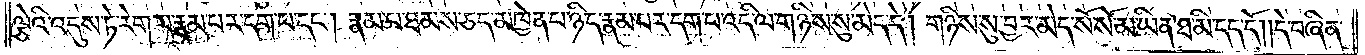ལྕེའི་འདུས་ཏེ་རེག་པ་རྣམ་པར་དག་པ་དང༌། རྣམ་པ་ཐམས་ཅད་མཁྱེན་པ་ཉིད་རྣམ་པར་དག་པ་འདི་ལ་གཉིས་སུ་མེད་དེ། གཉིས་སུ་བྱར་མེད་སོ་སོ་མ་ཡིན་ཐ་མི་དད་དོ། །དེ་བཞིན་
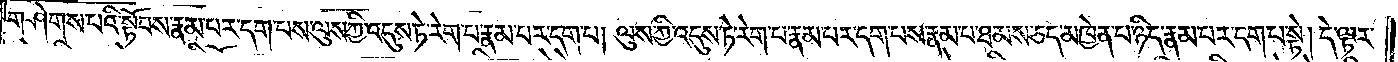གཤེགས་པའི་སྟོབས་རྣམ་པར་དག་པས་ལུས་ཀྱི་འདུས་ཏེ་རེག་པ་རྣམ་པར་དག་པ། ལུས་ཀྱི་འདུས་ཏེ་རེག་པ་རྣམ་པར་དག་པས་རྣམ་པ་ཐམས་ཅད་མཁྱེན་པ་ཉིད་རྣམ་པར་དག་པ་སྟེ། དེ་ལྟར་
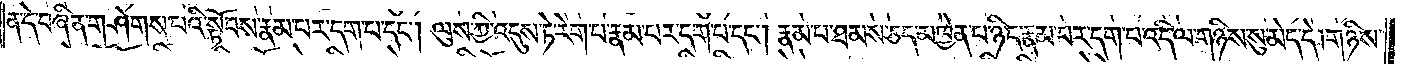ན་དེ་བཞིན་གཤེགས་པའི་སྟོབས་རྣམ་པར་དག་པ་དང༌། ལུས་ཀྱི་འདུས་ཏེ་རེག་པ་རྣམ་པར་དག་པ་དང༌། རྣམ་པ་ཐམས་ཅད་མཁྱེན་པ་ཉིད་རྣམ་པར་དག་པ་འདི་ལ་གཉིས་སུ་མེད་དེ། གཉིས་
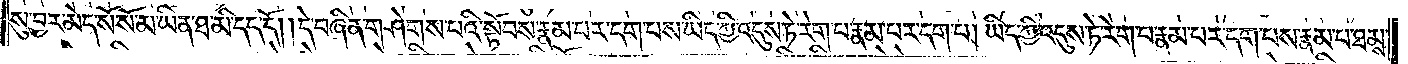སུ་བྱར་མེད་སོ་སོ་མ་ཡིན་ཐ་མི་དད་དོ། །དེ་བཞིན་གཤེགས་པའི་སྟོབས་རྣམ་པར་དག་པས་ཡིད་ཀྱི་འདུས་ཏེ་རེག་པ་རྣམ་པར་དག་པ། ཡིད་ཀྱི་འདུས་ཏེ་རེག་པ་རྣམ་པར་དག་པས་རྣམ་པ་ཐམས་
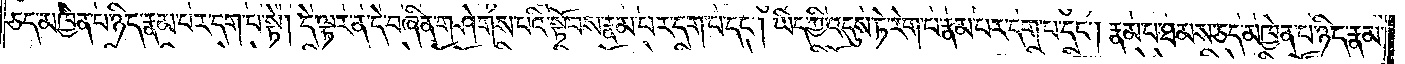ཅད་མཁྱེན་པ་ཉིད་རྣམ་པར་དག་པ་སྟེ། དེ་ལྟར་ན་དེ་བཞིན་གཤེགས་པའི་སྟོབས་རྣམ་པར་དག་པ་དང༌། ཡིད་ཀྱི་འདུས་ཏེ་རེག་པ་རྣམ་པར་དག་པ་དང༌། རྣམ་པ་ཐམས་ཅད་མཁྱེན་པ་ཉིད་རྣམ་
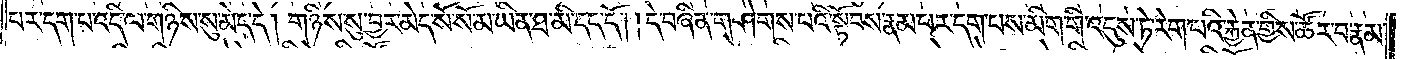པར་དག་པ་འདི་ལ་གཉིས་སུ་མེད་དེ། གཉིས་སུ་བྱར་མེད་སོ་སོ་མ་ཡིན་ཐ་མི་དད་དོ། །དེ་བཞིན་གཤེགས་པའི་སྟོབས་རྣམ་པར་དག་པས་མིག་གི་འདུས་ཏེ་རེག་པའི་རྐྱེན་གྱིས་ཚོར་བ་རྣམ་
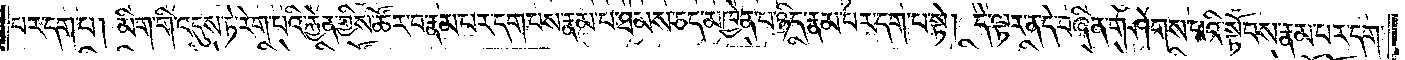པར་དག་པ། མིག་གི་འདུས་ཏེ་རེག་པའི་རྐྱེན་གྱིས་ཚོར་བ་རྣམ་པར་དག་པས་རྣམ་པ་ཐམས་ཅད་མཁྱེན་པ་ཉིད་རྣམ་པར་དག་པ་སྟེ། དེ་ལྟར་ན་དེ་བཞིན་གཤེགས་པའི་སྟོབས་རྣམ་པར་དག་
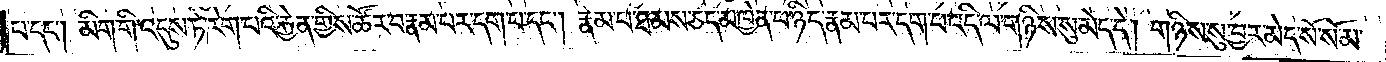པ་དང༌། མིག་གི་འདུས་ཏེ་རེག་པའི་རྐྱེན་གྱིས་ཚོར་བ་རྣམ་པར་དག་པ་དང༌། རྣམ་པ་ཐམས་ཅད་མཁྱེན་པ་ཉིད་རྣམ་པར་དག་པ་འདི་ལ་གཉིས་སུ་མེད་དེ། གཉིས་སུ་བྱར་མེད་སོ་སོ་མ་
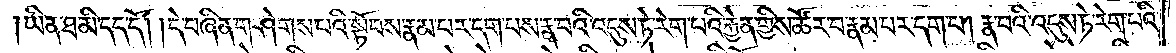ཡིན་ཐ་མི་དད་དོ། །དེ་བཞིན་གཤེགས་པའི་སྟོབས་རྣམ་པར་དག་པས་རྣ་བའི་འདུས་ཏེ་རེག་པའི་རྐྱེན་གྱིས་ཚོར་བ་རྣམ་པར་དག་པ། རྣ་བའི་འདུས་ཏེ་རེག་པའི་
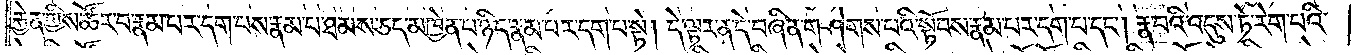རྐྱེན་གྱིས་ཚོར་བ་རྣམ་པར་དག་པས་རྣམ་པ་ཐམས་ཅད་མཁྱེན་པ་ཉིད་རྣམ་པར་དག་པ་སྟེ། དེ་ལྟར་ན་དེ་བཞིན་གཤེགས་པའི་སྟོབས་རྣམ་པར་དག་པ་དང༌། རྣ་བའི་འདུས་ཏེ་རེག་པའི་
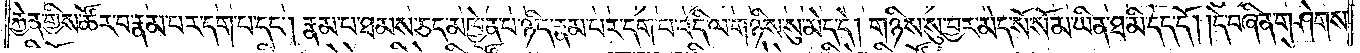རྐྱེན་གྱིས་ཚོར་བ་རྣམ་པར་དག་པ་དང༌། རྣམ་པ་ཐམས་ཅད་མཁྱེན་པ་ཉིད་རྣམ་པར་དག་པ་འདི་ལ་གཉིས་སུ་མེད་དེ། གཉིས་སུ་བྱར་མེད་སོ་སོ་མ་ཡིན་ཐ་མི་དད་དོ། །དེ་བཞིན་གཤེགས་
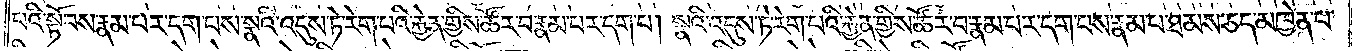པའི་སྟོབས་རྣམ་པར་དག་པས་སྣའི་འདུས་ཏེ་རེག་པའི་རྐྱེན་གྱིས་ཚོར་བ་རྣམ་པར་དག་པ། སྣའི་འདུས་ཏེ་རེག་པའི་རྐྱེན་གྱིས་ཚོར་བ་རྣམ་པར་དག་པས་རྣམ་པ་ཐམས་ཅད་མཁྱེན་པ་
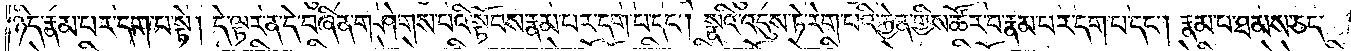ཉིད་རྣམ་པར་དག་པ་སྟེ། དེ་ལྟར་ན་དེ་བཞིན་གཤེགས་པའི་སྟོབས་རྣམ་པར་དག་པ་དང༌། སྣའི་འདུས་ཏེ་རེག་པའི་རྐྱེན་གྱིས་ཚོར་བ་རྣམ་པར་དག་པ་དང༌། རྣམ་པ་ཐམས་ཅད་
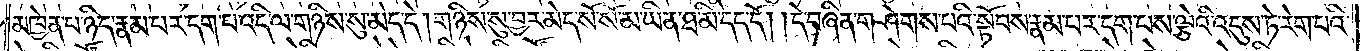མཁྱེན་པ་ཉིད་རྣམ་པར་དག་པ་འདི་ལ་གཉིས་སུ་མེད་དེ། གཉིས་སུ་བྱར་མེད་སོ་སོ་མ་ཡིན་ཐ་མི་དད་དོ། །དེ་བཞིན་གཤེགས་པའི་སྟོབས་རྣམ་པར་དག་པས་ལྕེའི་འདུས་ཏེ་རེག་པའི་
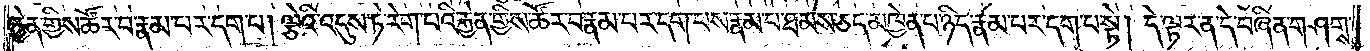རྐྱེན་གྱིས་ཚོར་བ་རྣམ་པར་དག་པ། ལྕེའི་འདུས་ཏེ་རེག་པའི་རྐྱེན་གྱིས་ཚོར་བ་རྣམ་པར་དག་པས་རྣམ་པ་ཐམས་ཅད་མཁྱེན་པ་ཉིད་རྣམ་པར་དག་པ་སྟེ། དེ་ལྟར་ན་དེ་བཞིན་གཤེགས་
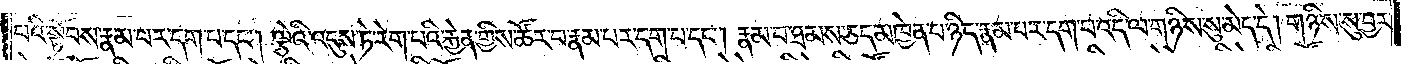པའི་སྟོབས་རྣམ་པར་དག་པ་དང༌། ལྕེའི་འདུས་ཏེ་རེག་པའི་རྐྱེན་གྱིས་ཚོར་བ་རྣམ་པར་དག་པ་དང༌། རྣམ་པ་ཐམས་ཅད་མཁྱེན་པ་ཉིད་རྣམ་པར་དག་པ་འདི་ལ་གཉིས་སུ་མེད་དེ། གཉིས་སུ་བྱར་
